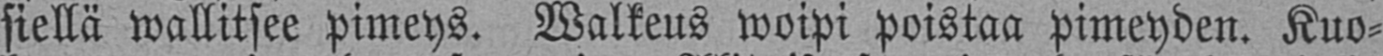siellä wallitsee pimeys. Walkeus woipi poistaa pimeyden. Kuo-
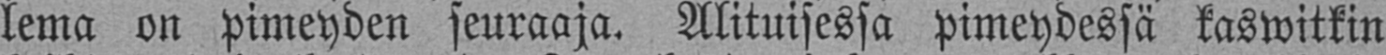lema on pimeyden seuraaja. Alituisessa pimeydessä kaswitkin
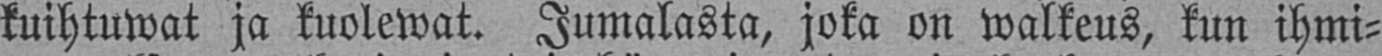kuihtuwat ja kuolewat. Jumalasta, joka on walkeus, kun ihmi-
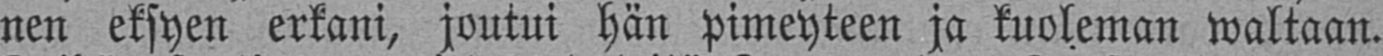nen eksyen erkani, joutui hän pimeyteen ja kuoleman waltaan.
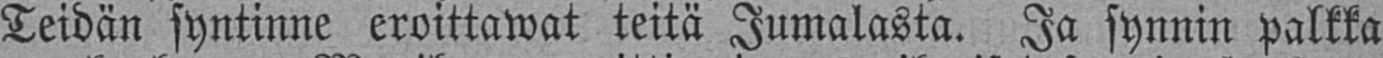Teidän syntinne eroittawat teitä Jumalasta. Ja synnin palkka
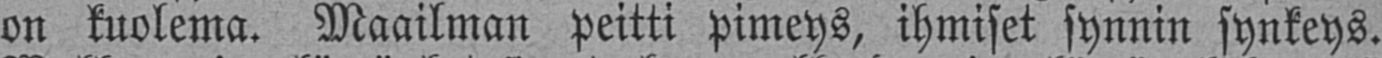on kuolema. Maailman peitti pimeys, ihmiset synnin synkeys.
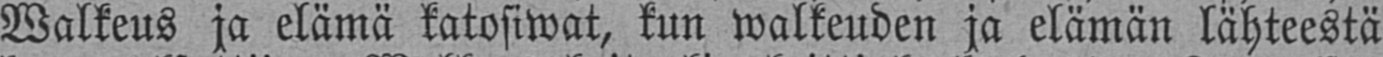Walkeus ja elämä katosiwat, kun walkeuden ja elämän lähteestä
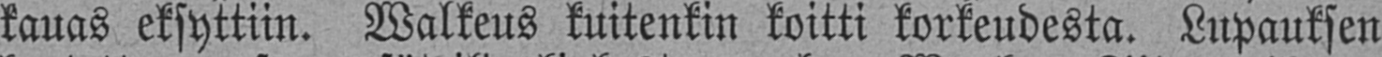kauas eksyttiin. Walkeus kuitenkin koitti korkeudesta. Lupauksen
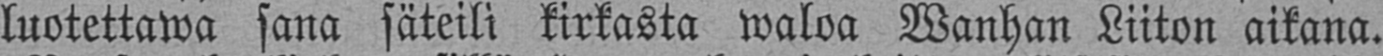luotettawa sana säteili kirkasta waloa Wanhan Liiton aikana.
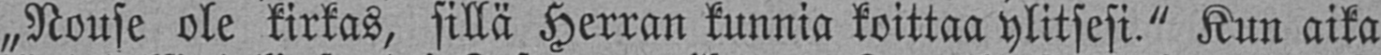„Nouse ole kirkas, sillä Herran kunnia koittaa ylitsesi." Kun aika
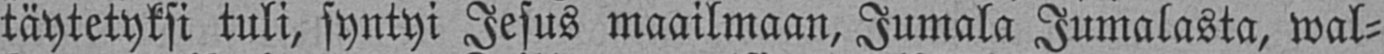täytetyksi tuli, syntyi Jesus maailmaan. Jumala Jumalasta, wal-
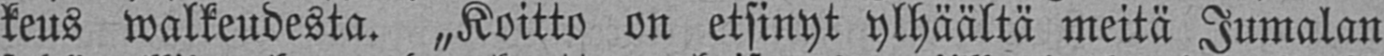keus walkeudesta. „Koitto on etsinyt ylhäältä meitä Jumalan
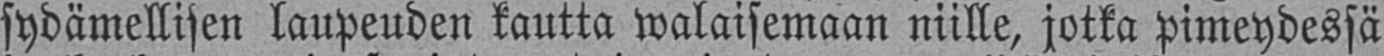sydämellisen laupeuden kautta niille, jotka pimeydessä
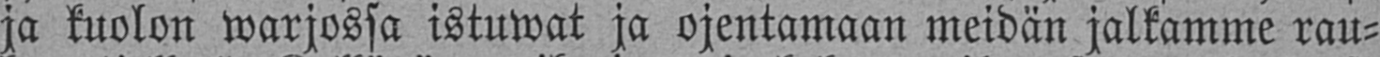ja kuolon warjossa istuwat ja ojentamaan meidän jalkamme rau-
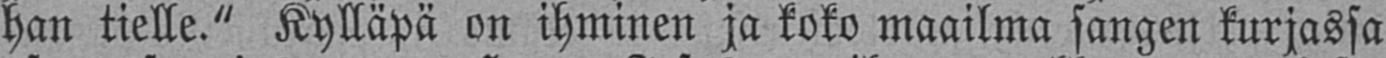han tielle." Kylläpä on ihminen ja koko maailma sangen kurjassa
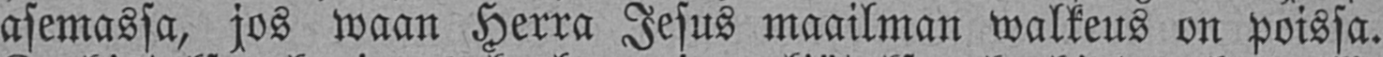asemassa, jos waan Herra Jesus maailman walkeus on poissa.
